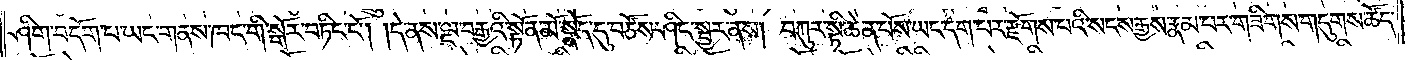ཤིག་བདོག་པ་ཡང་གནས་ཁང་གི་སྒོར་བཏིང་ངོ༌། །དེ་ནས་ལྔ་བརྒྱའི་སྟོན་མོ་སྣོད་དུ་བཙོས་ཤིང་སྦྱར་ནས། བཀུར་སྟི་ཆེན་པོས་ཡང་དག་པར་རྫོགས་པའི་སངས་རྒྱས་རྣམ་པར་གཟིགས་གདུགས་ཚོད་
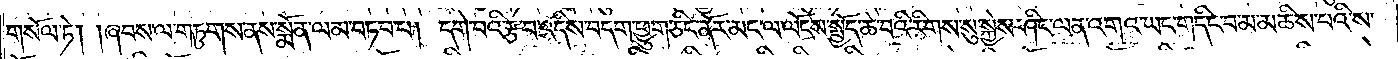གསོལ་ཏེ། །ཞབས་ལ་གཏུགས་ནས་སྨོན་ལམ་བཏབ་པ། དགེ་བའི་རྩ་བ་འདིས་བདག་ཕྱུག་ཅིང་ནོར་མང་ལ་ལོངས་སྤྱོད་ཆེ་བའི་རིགས་སུ་སྐྱེས་ཤིང་ལན་འགའ་ཡང་གདིང་བ་མ་མཆིས་པའི་ས་
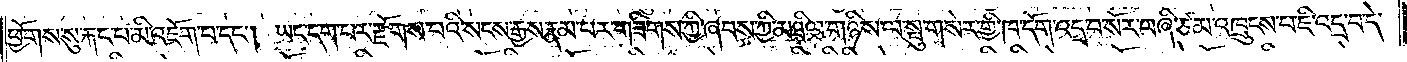ཕྱོགས་སུ་རྐང་པ་མི་འཇོག་པ་དང༌། ཡང་དག་པར་རྫོགས་པའི་སངས་རྒྱས་རྣམ་པར་གཟིགས་ཀྱི་ཞབས་ཀྱི་མཐིལ་གཉིས་ལ་སྤུ་གསེར་གྱི་ཁ་དོག་འདྲ་བ་སོར་བཞི་ཙམ་འཁྲུངས་པ་ཇི་འདྲ་བ་དེ་
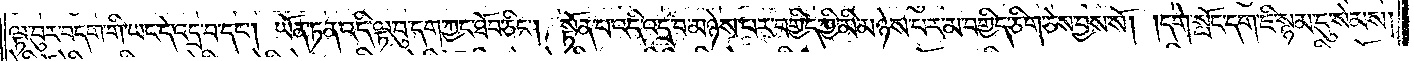ལྟ་བུར་བདག་གི་ཡང་དེ་འདྲ་བ་དང༌། ཡོན་ཏན་འདི་ལྟ་བུ་དག་ཀྱང་ཐོབ་ཅིང༌། སྟོན་པ་འདི་འདྲ་བ་མཉེས་པར་བགྱིད་ཀྱི་མི་མཉེས་པར་མ་བགྱིད་ཅིག་ཅེས་བྱས་སོ། །དགེ་སློང་དག་ཇི་སྙམ་དུ་སེམས་
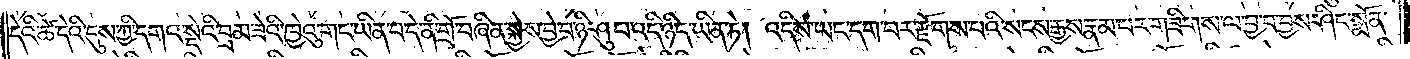དེའི་ཚེ་དེའི་དུས་ཀྱི་དགའ་སྡེའི་བྲམ་ཟེའི་ཁྱེའུ་གང་ཡིན་པ་དེ་ནི་གྲོ་བཞིན་སྐྱེས་བྱེ་བ་ཉི་ཤུ་བ་འདི་ཉིད་ཡིན་ཏེ། འདིས་ཡང་དག་པར་རྫོགས་པའི་སངས་རྒྱས་རྣམ་པར་གཟིགས་ལ་བྱ་བ་བྱས་ཤིང་སྨོན་
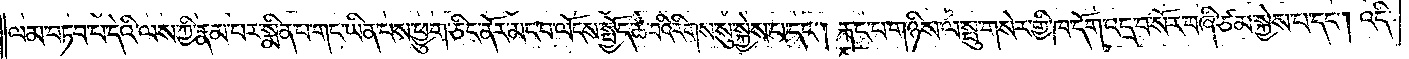ལམ་བཏབ་པ་དེའི་ལས་ཀྱི་རྣམ་པར་སྨིན་པ་གང་ཡིན་པས་ཕྱུག་ཅིང་ནོར་མང་བ་ལོངས་སྤྱོད་ཆེ་བའི་རིགས་སུ་སྐྱེས་པ་དང༌། རྐང་པ་གཉིས་ལ་སྤུ་གསེར་གྱི་ཁ་དོག་འདྲ་བ་སོར་བཞི་ཙམ་སྐྱེས་པ་དང༌། འདི་
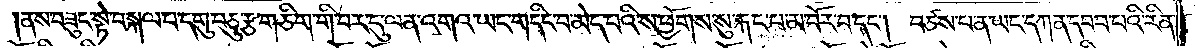ནས་བཟུང་སྟེ་བསྐལ་པ་དགུ་བཅུ་རྩ་གཅིག་གི་བར་དུ་ལན་འགའ་ཡང་གདིང་བ་མེད་པའི་ས་ཕྱོགས་སུ་རྐང་པ་མ་བོར་བ་དང༌། བཙས་པ་ན་ཡང་དཀན་དབབ་པའི་རིན་
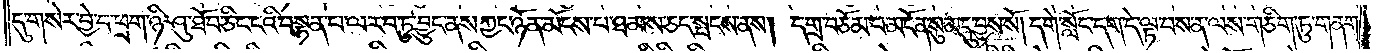དུ་གསེར་བྱེ་བ་ཕྲག་ཉི་ཤུ་ཐོབ་ཅིང་ངའི་བསྟན་པ་ལ་རབ་ཏུ་བྱུང་ནས་ཀྱང་ཉོན་མོངས་པ་ཐམས་ཅད་སྤངས་ནས། དགྲ་བཅོམ་པ་མངོན་སུམ་དུ་བྱས་སོ། །དགེ་སློང་དག་དེ་ལྟ་བས་ན་ལས་གཅིག་ཏུ་གནག་
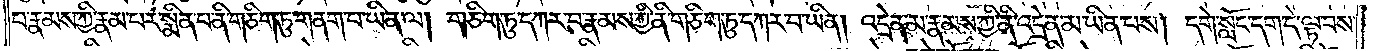པ་རྣམས་ཀྱི་རྣམ་པར་སྨིན་པ་ནི་གཅིག་ཏུ་གནག་པ་ཡིན་ལ། གཅིག་ཏུ་དཀར་བ་རྣམས་ཀྱི་ནི་གཅིག་ཏུ་དཀར་བ་ཡིན། འདྲེན་མ་རྣམས་ཀྱི་ནི་འདྲེན་མ་ཡིན་པས། དགེ་སློང་དག་དེ་ལྟ་བས་
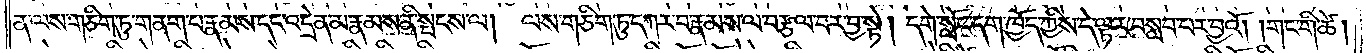ན་ལས་གཅིག་ཏུ་གནག་པ་རྣམས་དང་འདྲེན་མ་རྣམས་ནི་སྤངས་ལ། ལས་གཅིག་ཏུ་དཀར་བ་རྣམས་ལ་བརྩལ་བར་བྱ་སྟེ། དགེ་སློང་དག་ཁྱོད་ཀྱིས་དེ་ལྟར་བསླབ་པར་བྱའོ། །གང་གི་ཚེ།
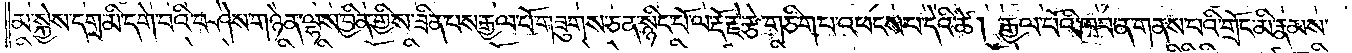མ་སྐྱེས་དགྲ་མི་དགེ་བའི་བཤེས་གཉེན་ལྷས་བྱིན་གྱིས་ཟིན་པས་རྒྱལ་པོ་གཟུགས་ཅན་སྙིང་པོ་ལ་རྡོ་རྗེ་རྩེ་གཅིག་པ་འཕངས་པ་དེའི་ཚེ། རྒྱལ་པོའི་ཁབ་ན་གནས་པའི་གྲོང་མི་རྣམས་
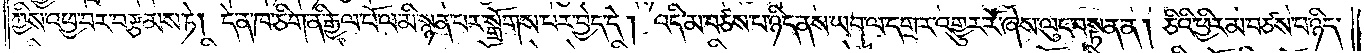ཀྱིས་འཕྱ་བར་བརྩམས་ཏེ། དེ་ན་ཁ་ཅིག་ནི་རྒྱལ་པོ་ལ་མི་སྙན་པར་སྒྲོགས་པར་བྱེད་དེ། འདི་མ་བཙས་པ་ཉིད་ནས་ཡབ་ལ་དགྲར་འགྱུར་རོ་ཞེས་ལུང་བསྟན་ན། ཅིའི་ཕྱིར་མ་བཙས་པ་ཉིད་
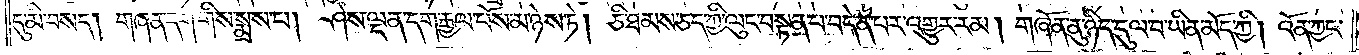དུ་མི་བསད། གཞན་དག་གིས་སྨྲས་པ། ཤེས་ལྡན་དག་རྒྱལ་པོས་མ་ཉེས་ཏེ། ཅི་ཐམས་ཅད་ཀྱི་ལུང་བསྟན་པ་བདེན་པར་འགྱུར་རམ། གཞོན་ནུ་ཉིད་དུལ་བ་ཡིན་མོད་ཀྱི། འོན་ཀྱང་
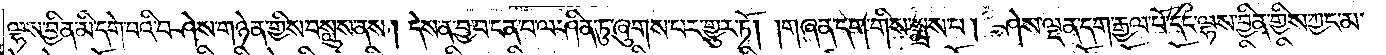ལྷས་བྱིན་མི་དགེ་བའི་བཤེས་གཉེན་གྱིས་བསླུས་ནས། དེས་ན་བྱ་བ་ངན་པ་ལ་ཤིན་ཏུ་ཞུགས་པར་གྱུར་ཏོ། །གཞན་དག་གིས་སྨྲས་པ། ཤེས་ལྡན་དག་རྒྱལ་པོ་དང་ལྷས་བྱིན་གྱིས་ཀྱང་མ་
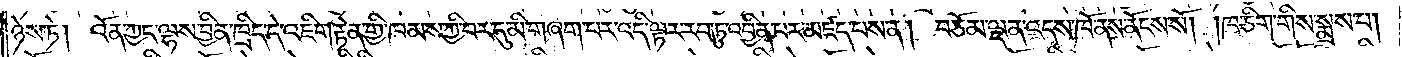ཉེས་ཏེ། འོན་ཀྱང་ལྷས་བྱིན་ཁྲིད་དེ་འཇིག་རྟེན་གྱི་ཁམས་ཀྱི་བར་དུ་མི་གཞག་པར་འདི་ལྟར་རབ་ཏུ་འབྱིན་པར་མཛད་པས་ན། བཅོམ་ལྡན་འདས་ཁོ་ནས་ནོངས་སོ། །ཁ་ཅིག་གིས་སྨྲས་པ།
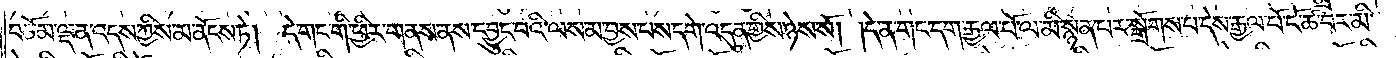བཅོམ་ལྡན་འདས་ཀྱིས་མ་ནོངས་ཏེ། དེ་གང་གི་ཕྱིར་གནས་ནས་དབྱུང་བའི་ལས་མ་བྱས་པས་དགེ་འདུན་གྱིས་ཉེས་སོ། །དེ་ན་གང་དག་རྒྱལ་པོ་ལ་མི་སྙན་པར་སྒྲོགས་པ་དེས་རྒྱལ་པོ་ངོ་ཚ་བར་མི་
